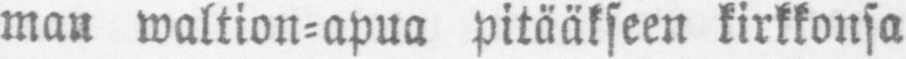man waltion-apua pitääkseen kirkkonsa
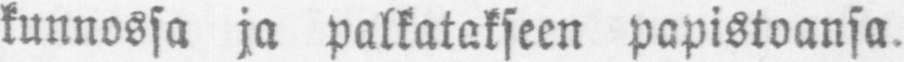kunnossa ja palkatakseen papistoansa.
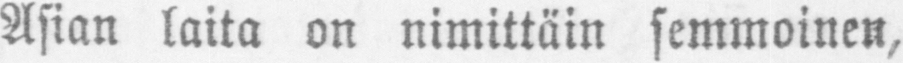Asian laita on nimittäin semmoinen,
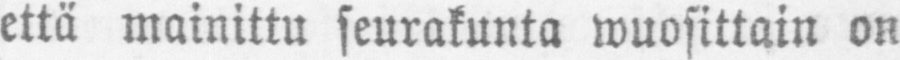että mainittu seurakunta wuosittain on
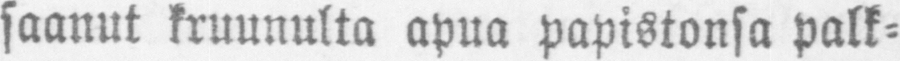saanut kruunulta apua papistonsa palk-
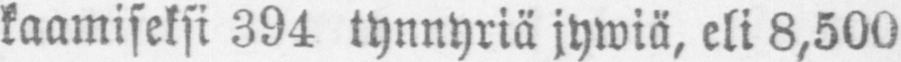kaamiseksi 394 tynnyriä jywiä, eli 8,500
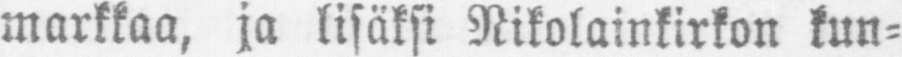markkaa, ja lisäksi Nikolainkirkon kun-
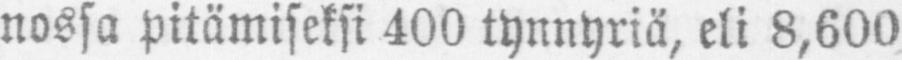nossa pitämiseksi 400 tynnyriä, eli 8,600
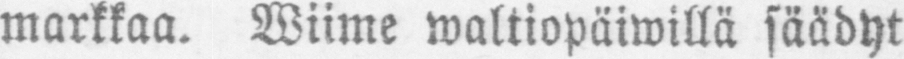markkaa. Wiime waltiopäiwillä säädyt
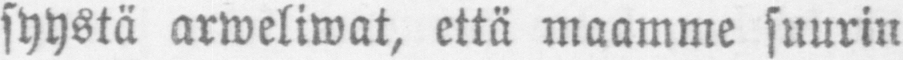syystä arweliwat, että maamme suurin
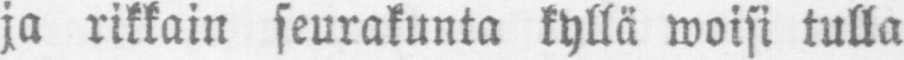ja rikkain seurakunta kyllä woisi tulla
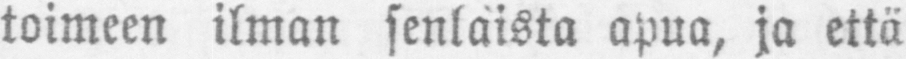toimeen ilman senlaista apua, ja että
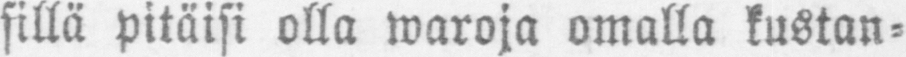sillä pitäisi olla waroja omalla kustan-
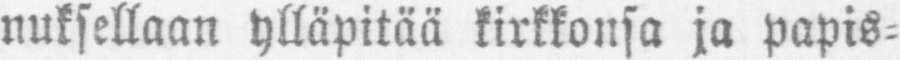nuksellaan ylläpitää kirkkonsa ja papis-
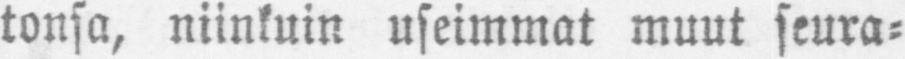tonsa, niinkuin useimmat muut seura-
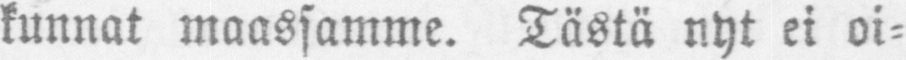kunnat maassamme. Tästä nyt ei oi-
